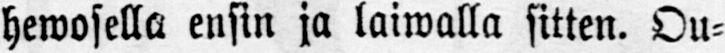hewosella ensin ja laiwalla sitten. Ou-
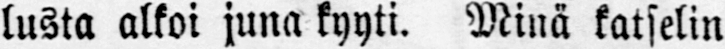lusta alkoi juna kyyti. Minä katselin
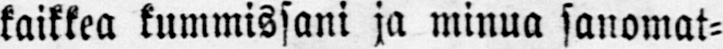kaikkea kummissani ja minua sanomat-
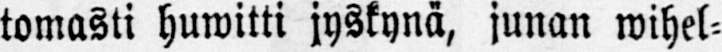tomasti humitti jyskynä, junan wihel-
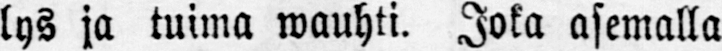lys ja tuima wauhti. Joka asemalla
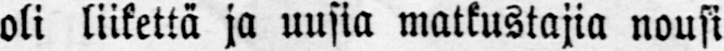oli liikettä ja uusia matkustajia nousi
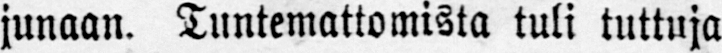junaan. Tuntemattomista tuli tuttuja
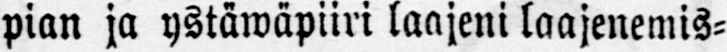pian ja ystäwäpiiri laajeni laajenemis-
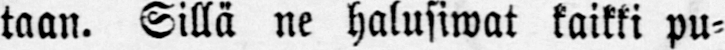taan. Sillä ne halusiwat kaikki pu-
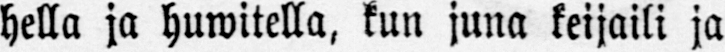hella ja huwitella, kun juna keijaili ja
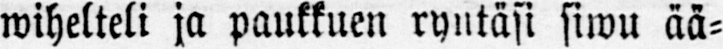wihelteli ja paukkuen ryntäsi siwu ää-
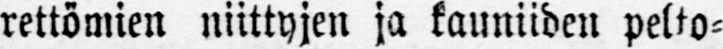rettömien niittyjen ja kauniiden pelto-
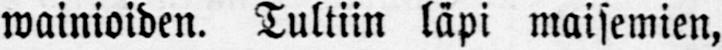wainioiden. Tultiin läpi maisemien,
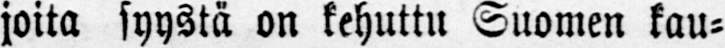joita syystä on kehuttu Suomen kau-
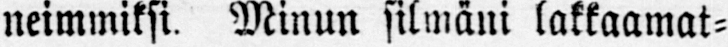neimmiksi. Minun silmäni lakkaamat-
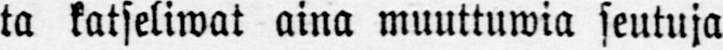ta katseliwat aina muuttuwia seutuja
